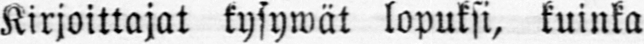Kirjoittajat kysywät lopuksi, kuinka
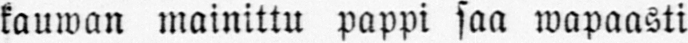kauwan mainittu pappi saa wapaasti
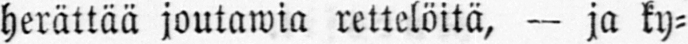herättää joutawia rettelöitä, — ja ky-
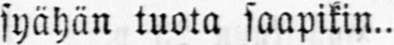syähän tuota saapikin..
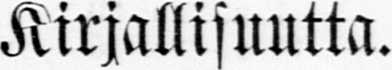Kirjallisuutta.
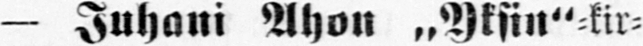— Juhani Ahon „Yksin"-kir-
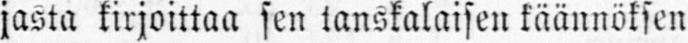jasta kirjoittaa sen tanskalaisen käännöksen
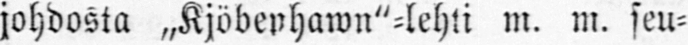johdosta „Kjöbevhawn"-lehti m. m. seu-
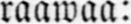raawaa:
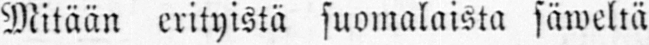Mitään erityistä suomalaista säweltä
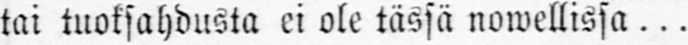tai tuoksahdusta ei ole tässä nowellissa...
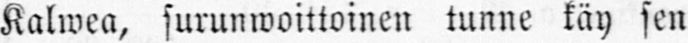Kalwea, surunwoittoinen tunne käy sen
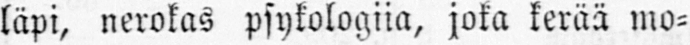läpi, nerokas psykologiia, joka kerää mo-
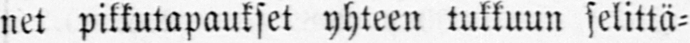net pikkutapaukset yhteen tukkuun selittä-
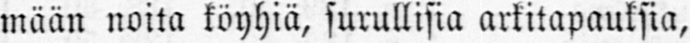mään noita köyhiä, surullisia arkitapauksia,
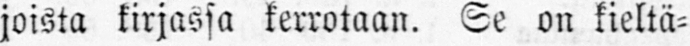joista kirjassa kerrotaan. Se on kieltä-
